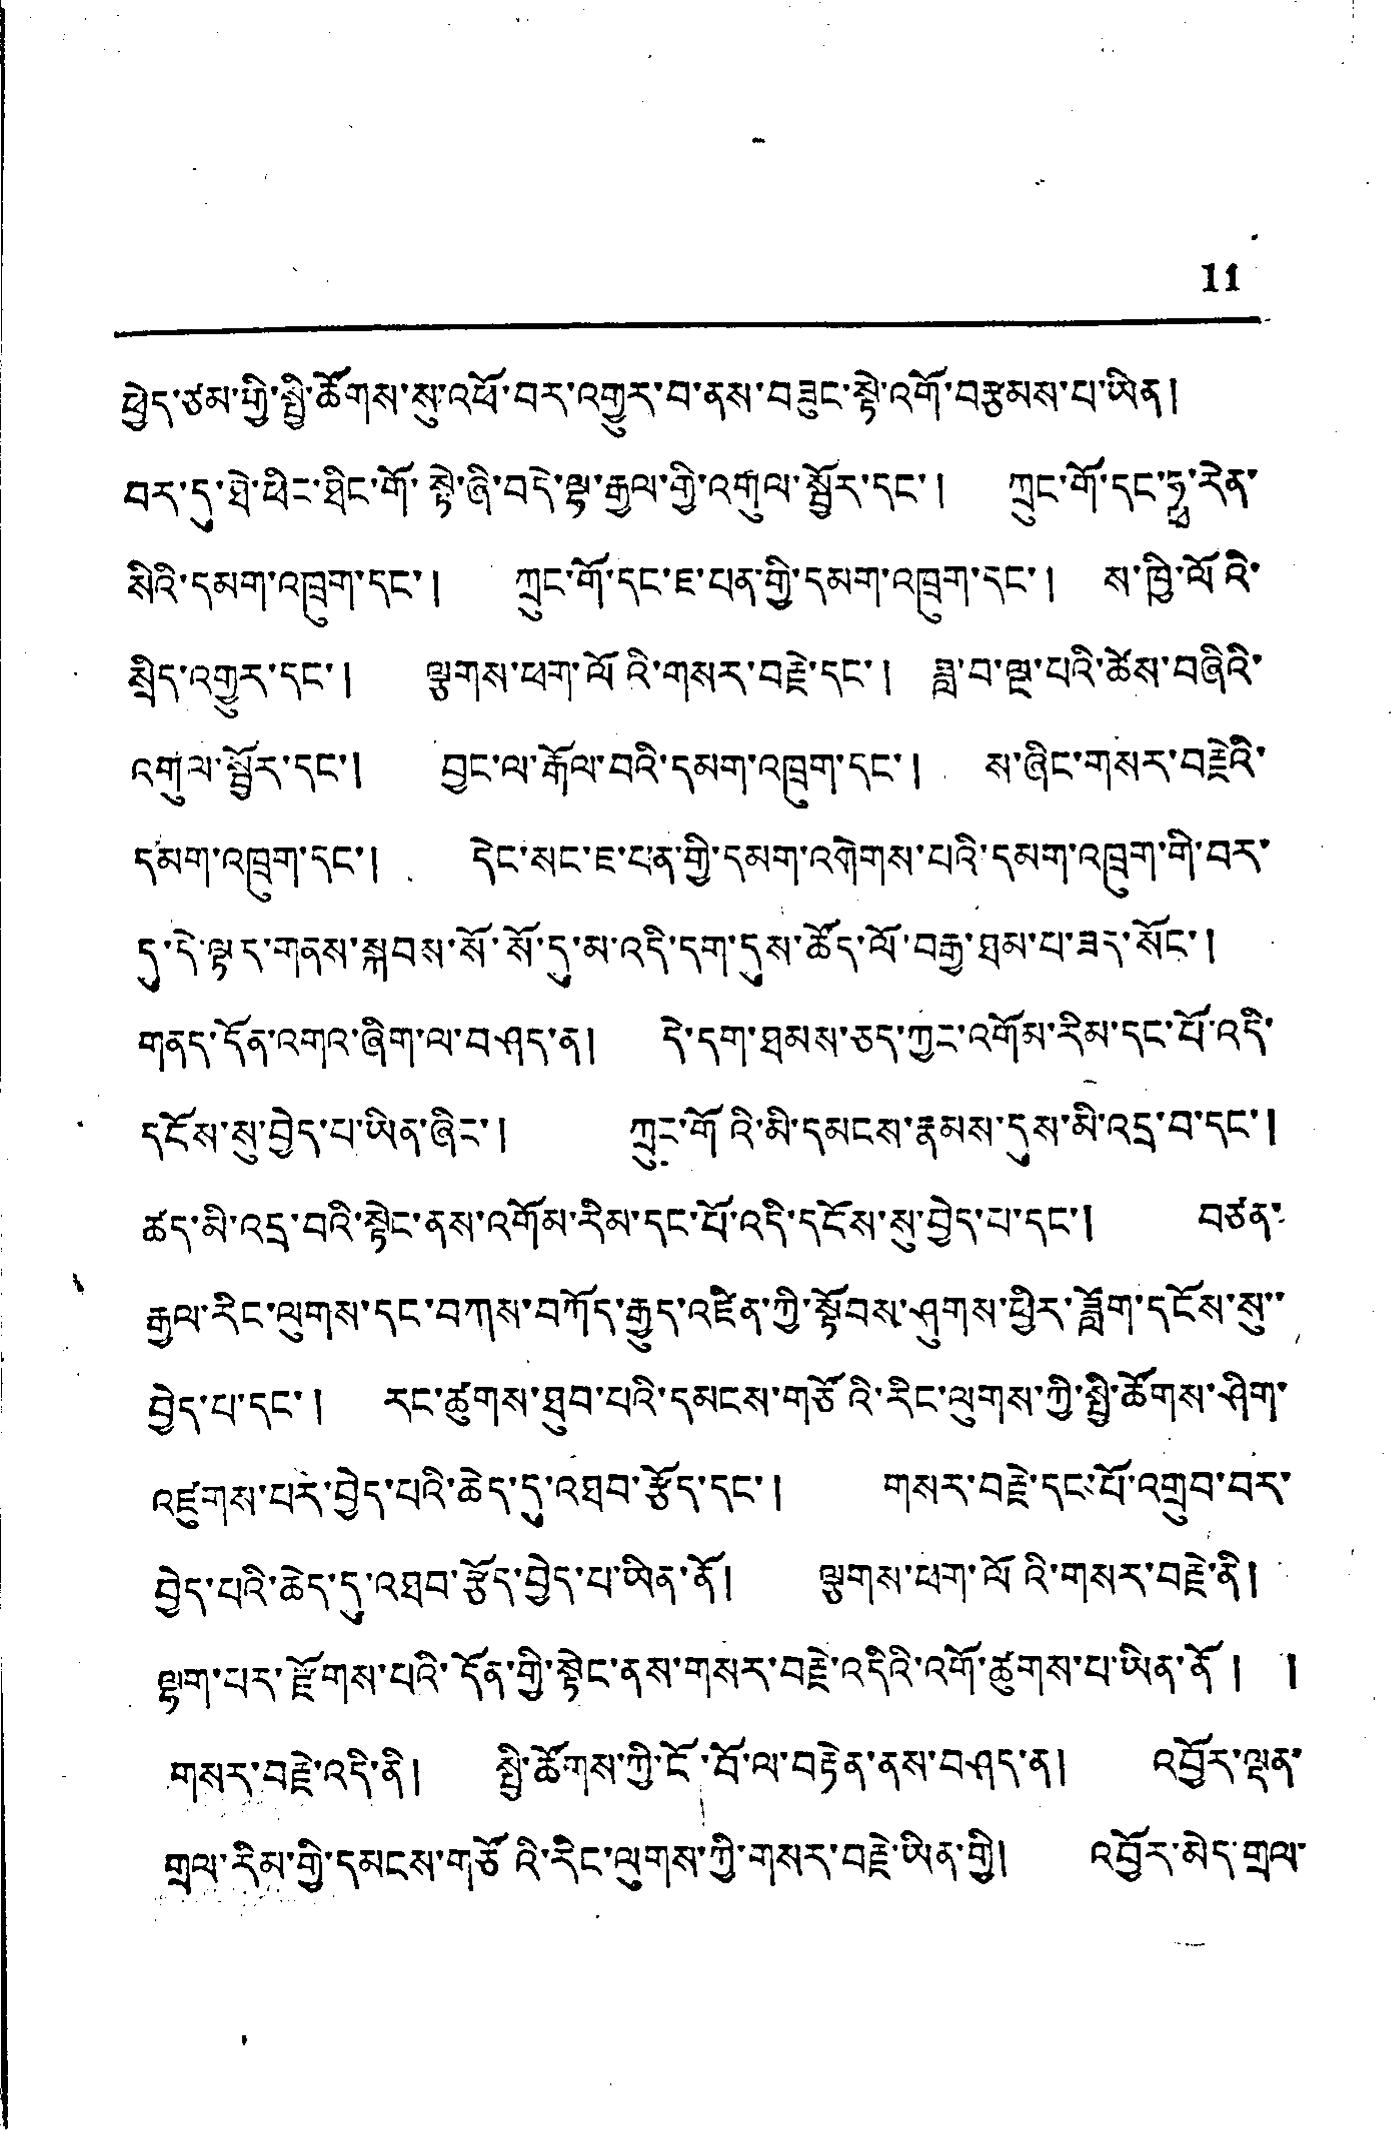11
ཕྱེད་ཙམ་གྱི་སྤྱི་ཚོགས་སུ་འཕོ་བར་འགྱུར་བ་ནས་བཟུང་སྟེ་འགོ་བརྩམས་པ་ཡིན།
བར་དུ་ཐེ་ཕིང་ཐིང་གོ་སྟེ་ཞི་བདེ་ལྔ་རྒྱལ་གྱི་འགུལ་སྦྱོར་དང་། ཀྲུང་གོ་དང་ཧྥ་རེན་
སིའི་དམག་འཁྲུག་དང་། ཀྲུང་གོ་དང་ཇ་པན་གྱི་དམག་འཁྲུག་དང་། ས་ཁྱི་ལོའི་
སྲིད་འགྱུར་དང་། ལྕགས་ཕག་ལོའི་གསར་བརྗེ་དང་། ཟླ་བ་ལྔ་པའི་ཚེས་བཞིའི་
འགུལ་སྦྱོར་དང་། བྱང་ལ་རྒོལ་བའི་དམག་འཁྲུག་དང་། ས་ཞིང་གསར་བརྗེའི་
དམག་འཁྲུག་དང་། དེང་སང་ཇ་པན་གྱི་དམག་འགེགས་པའི་དམག་འཁྲུག་གི་བར་
དུ་དེ་ལྟར་གནས་སྐབས་སོ་སོ་དུ་མ་འདི་དག་དུས་ཚོད་ལོ་བརྒྱ་ཐམ་པ་ཟར་སོང་།
གནད་དོན་འགའ་ཞིག་ལ་བཤད་ན། དེ་དག་ཐམས་ཅད་ཀྱང་འགོམ་རིམ་དང་པོ་འདི་
དངོས་སུ་བྱེད་པ་ཡིན་ཞིང་། ཀྲུང་གོའི་མི་དམངས་རྣམས་དུས་མི་འདྲ་བ་དང་།
ཚད་མི་འདྲ་བའི་སྟེང་ནས་འགོམ་རིམ་དང་པོ་འདི་དངོས་སུ་བྱེད་པ་དང་། བཙན་
རྒྱལ་རིང་ལུགས་དང་བཀས་བཀོད་རྒྱུད་འཛིན་ཀྱི་སྟོབས་ཤུགས་ཕྱིར་ཟློག་དངོས་སུ་
བྱེད་པ་དང་། རང་ཚུགས་ཐུབ་པའི་དམངས་གཙོའི་རིང་ལུགས་ཀྱི་སྤྱི་ཚོགས་ཤིག་
འཛུགས་པར་བྱེད་པའི་ཆེད་དུ་འཐབ་རྩོད་དང་། གསར་བརྗེ་དང་པོ་འགྲུབ་བར་
བྱེད་པའི་ཆེད་དུ་འཐབ་རྩོད་བྱེད་པ་ཡིན་ནོ། ལྕགས་ཕག་ལོའི་གསར་བརྗེ་ནི།
ལྷག་པར་རྫོགས་པའི་དོན་གྱི་སྟེང་ནས་གསར་བརྗེ་འདིའི་འགོ་ཚུགས་པ་ཡིན་ནོ། །
གསར་བརྗེ་འདི་ནི། སྤྱི་ཚོགས་ཀྱི་ངོ་བོ་ལ་བརྟེན་ནས་བཤད་ན། འབྱོར་ལྡན་
གྲལ་རིམ་གྱི་དམངས་གཙོའི་རིང་ལུགས་ཀྱི་གསར་བརྗེ་ཡིན་གྱི། འབྱོར་མེད་གྲལ་
